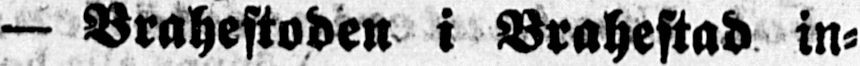— Brahestoden i Brahestad in-
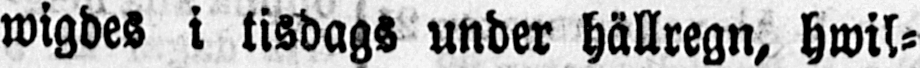wigdes i tisdags under hällregn, hwil-
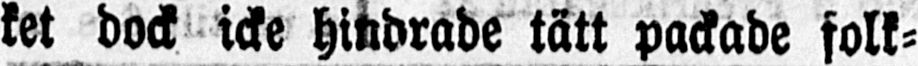ket dock icke hindrade tätt packade folk-
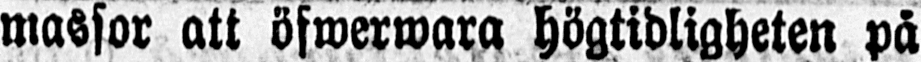massor att öfwerwara högtidligheten på
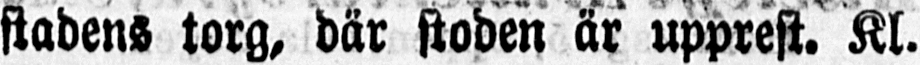stadens torg, där stoden är upprest. Kl.
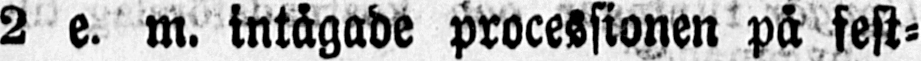2 e. m. intågade processionen på fest-
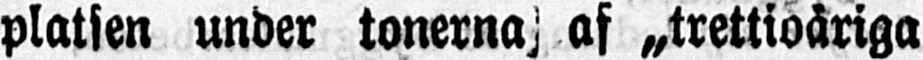platsen under tonerna af „trettioåriga
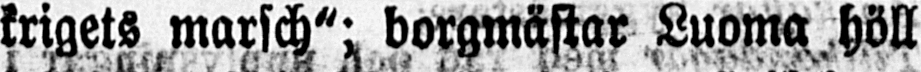krigets marsch"; borgmästar Luoma höll
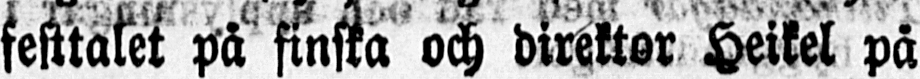festtalet på finska och direktor Heikel på
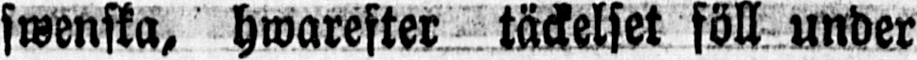swenska, hwarefter täckelset föll under
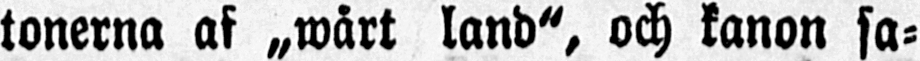tonerna af „wårt land", och kanon sa-
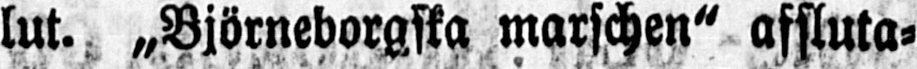lut. „Björneborgska marschen" afsluta-
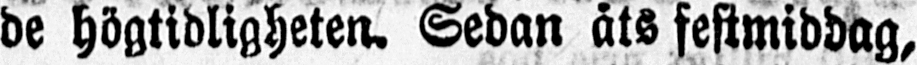de högtidligheten. Sedan åts festmiddag,
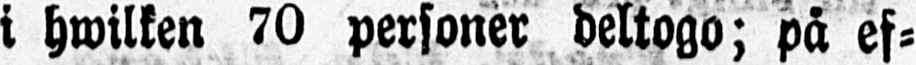i hwilken 70 personer deltogo; på ef-
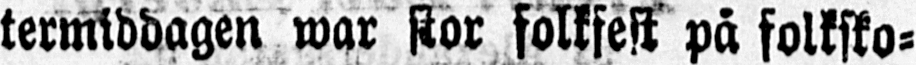termiddagen war stor folkfest på folksko-
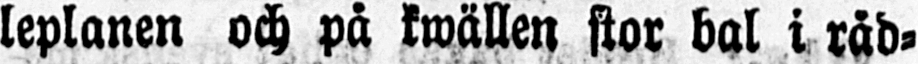leplanen och på kwällen stor bal i råd-
